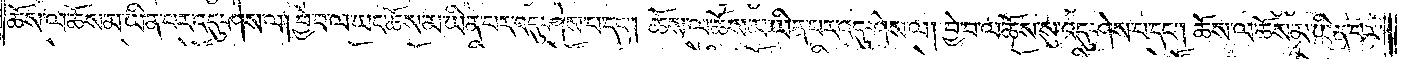ཆོས་ལ་ཆོས་མ་ཡིན་པར་འདུ་ཤེས་ལ། བྱེ་བ་ལ་ཡང་ཆོས་མ་ཡིན་པར་འདུ་ཤེས་པ་དང༌། ཆོས་ལ་ཆོས་མ་ཡིན་པར་འདུ་ཤེས་ལ། བྱེ་བ་ལ་ཆོས་སུ་འདུ་ཤེས་པ་དང༌། ཆོས་ལ་ཆོས་མ་ཡིན་པར་
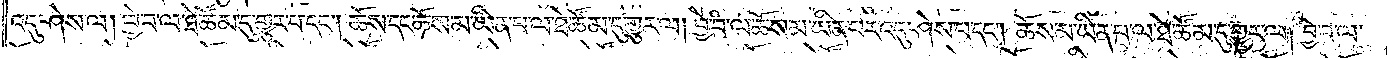འདུ་ཤེས་ལ། བྱེ་བ་ལ་ཐེ་ཚོམ་དུ་གྱུར་པ་དང༌། ཆོས་དང་ཆོས་མ་ཡིན་པ་ལ་ཐེ་ཚོམ་དུ་གྱུར་ལ། བྱེ་བ་ལ་ཆོས་མ་ཡིན་པར་འདུ་ཤེས་པ་དང༌། ཆོས་མ་ཡིན་པ་ལ་ཐེ་ཚོམ་དུ་གྱུར་ལ། བྱེ་བ་ལ་
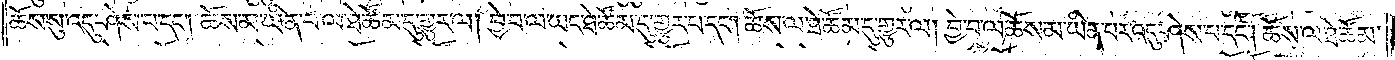ཆོས་སུ་འདུ་ཤེས་པ་དང༌། ཆོས་མ་ཡིན་པ་ལ་ཐེ་ཚོམ་དུ་གྱུར་ལ་བྱེ་བ་ལ་ཡང་ཐེ་ཚོམ་དུ་གྱུར་པ་དང༌། ཆོས་ལ་ཐེ་ཚོམ་དུ་གྱུར་ལ། བྱེ་བ་ལ་ཆོས་མ་ཡིན་པར་འདུ་ཤེས་པ་དང༌། ཆོས་ལ་ཐེ་ཚོམ་
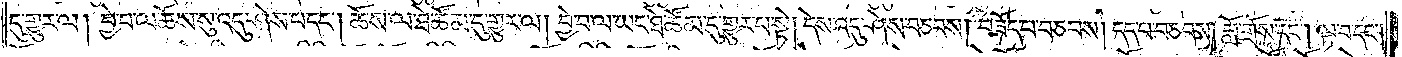དུ་གྱུར་ལ། བྱེ་བ་ལ་ཆོས་སུ་འདུ་ཤེས་པ་དང༌། ཆོས་ལ་ཐེ་ཚོམ་དུ་གྱུར་ལ། བྱེ་བ་ལ་ཡང་ཐེ་ཚོམ་དུ་གྱུར་པ་སྟེ། དེས་འདུ་ཤེས་བཅབས། བཟོད་པ་བཅབས། དད་པ་བཅབས། བློ་གྲོས་དང༌། ལྟ་བ་དང་
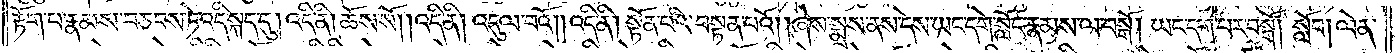རྟོག་པ་རྣམས་བཅབས་ཏེ་འདི་སྐད་དུ། འདི་ནི། ཆོས་སོ། །འདི་ནི། འདུལ་བའོ། །འདི་ནི། སྟོན་པའི་བསྟན་པའོ། །ཞེས་སྨྲས་ནས་དེས་ཡང་དགེ་སློང་རྣམས་ལ་བསྒོ། ཡང་དག་པར་བསྒོ། སློབ། ལེན་
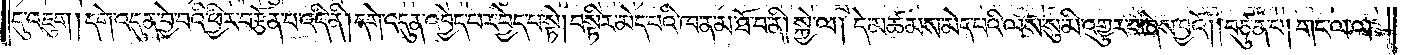དུ་འཇུག །དགེ་འདུན་བྱེ་བའི་ཕྱིར་བརྩོན་པ་འདི་ནི། དགེ་འདུན་འབྱེད་པར་བྱེད་པ་སྟེ། བསྟིར་མེད་པའི་ཁ་ན་མ་ཐོ་བ་ནི། སྐྱེ་ལ། དེ་མཚམས་མེད་པའི་ལས་སུ་མི་འགྱུར་བ་ཞེས་བྱའོ། །བཙུན་པ། གང་ལ་ལ་
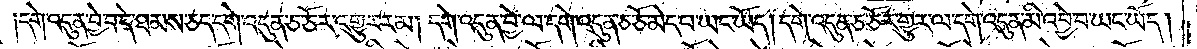དགེ་འདུན་བྱེ་བ་དེ་ཐམས་ཅད་དགེ་འདུན་ཅ་ཅོར་འགྱུར་རམ། དགེ་འདུན་བྱེ་ལ་དགེ་འདུན་ཅ་ཅོ་མེད་པ་ཡང་ཡོད། དགེ་འདུན་ཅ་ཅོར་གྱུར་ལ་དགེ་འདུན་མི་འབྱེ་བ་ཡང་ཡོད།
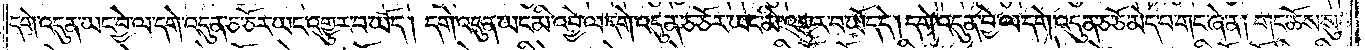དགེ་འདུན་ཡང་བྱེ་ལ་དགེ་འདུན་ཅ་ཅོར་ཡང་འགྱུར་བ་ཡོད། དགེ་འདུན་ཡང་མི་འབྱེ་ལ་དགེ་འདུན་ཅ་ཅོར་ཡང་མི་འགྱུར་བ་ཡོད་དེ། དགེ་འདུན་བྱེ་ལ་དགེ་འདུན་ཅ་ཅོ་མེད་པ་གང་ཞེ་ན། གང་ཆོས་སུ་
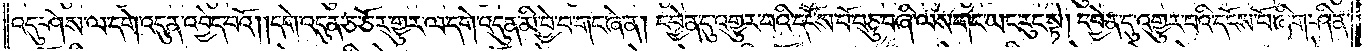འདུ་ཤེས་ལ་དགེ་འདུན་འབྱེད་པའོ། །དགེ་འདུན་ཅ་ཅོར་གྱུར་ལ་དགེ་འདུན་མི་བྱེ་བ་གང་ཞེ་ན། དབྱེན་དུ་འགྱུར་བའི་དངོས་པོ་བཅུ་བཞི་ལས་གང་ཡང་རུང་སྟེ། དབྱེན་དུ་འགྱུར་བའི་དངོས་པོ་ཞིག་ཤིན་
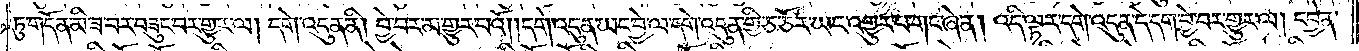ཏུ་གདོན་མི་ཟ་བར་བཟུང་བར་གྱུར་ལ། དགེ་འདུན་ནི། བྱེ་བར་མ་གྱུར་པའོ། །དགེ་འདུན་ཡང་བྱེ་ལ་དགེ་འདུན་གྱི་ཅ་ཅོར་ཡང་འགྱུར་པ་གང་ཞེ་ན། འདི་ལྟར་དགེ་འདུན་དེ་དག་བྱེ་བར་གྱུར་ལ། དབྱེན་
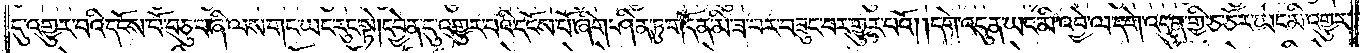དུ་འགྱུར་བའི་དངོས་པོ་བཅུ་བཞི་ལས་གང་ཡང་རུང་སྟེ། དབྱེན་དུ་འགྱུར་བའི་དངོས་པོ་ཞིག་ཤིན་ཏུ་གདོན་མི་ཟ་བར་བཟུང་བར་གྱུར་པའོ། །དགེ་འདུན་ཡང་མི་འབྱེ་ལ་དགེ་འདུན་གྱི་ཅ་ཅོར་ཡང་མི་འགྱུར་
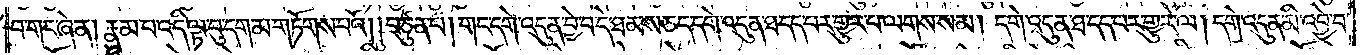བ་གང་ཞེ་ན། རྣམ་པ་འདི་ལྟ་བུ་དག་མ་གཏོགས་པའོ། །བཙུན་པ། གང་དགེ་འདུན་བྱེ་བ་དེ་ཐམས་ཅད་དགེ་འདུན་ཐ་དད་པར་གྱུར་པ་ལགས་སམ། དགེ་འདུན་ཐ་དད་པར་འགྱུར་ལ། དགེ་འདུན་མི་འབྱེ་བ་
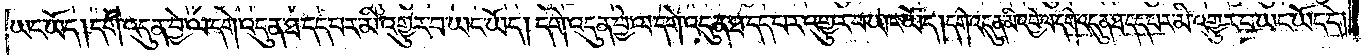ཡང་ཡོད། །དགེ་འདུན་བྱེ་ལ་དགེ་འདུན་ཐ་དད་པར་མི་འགྱུར་བ་ཡང་ཡོད། དགེ་འདུན་བྱེ་ལ་དགེ་འདུན་ཐ་དད་པར་འགྱུར་བ་ཡང་ཡོད། དགེ་འདུན་མི་འབྱེ་ལ་དགེ་འདུན་ཐ་དད་པར་མི་འགྱུར་བ་ཡང་ཡོད་དེ་
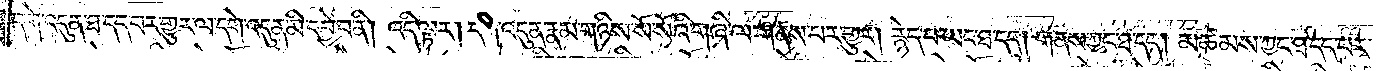དགེ་འདུན་ཐ་དད་པར་གྱུར་ལ་དགེ་འདུན་མི་དབྱེ་བ་ནི། འདི་ལྟར། དགེ་འདུན་རྣམ་གཉིས་སོ་སོའི་གཞི་ལ་གནས་པར་གྱུར། རྙེད་པ་ཡང་ཐ་དད། གནས་ཀྱང་ཐ་དད། མཚམས་ཀྱང་ཐ་དད་པར་
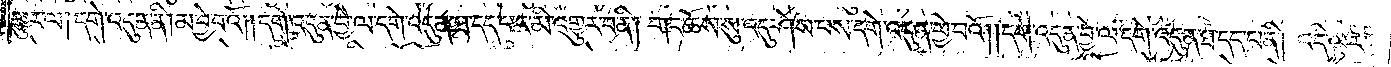གྱུར་ལ། དགེ་འདུན་ནི། མ་བྱེ་བའོ། །དགེ་འདུན་བྱེ་ལ་དགེ་འདུན་ཐ་དད་པར་མི་འགྱུར་བ་ནི། གང་ཆོས་སུ་འདུ་ཤེས་པས་དགེ་འདུན་ཕྱེ་བའོ། །དགེ་འདུན་བྱེ་ལ་དགེ་འདུན་ཐ་དད་པ་ནི། འདི་ལྟར་
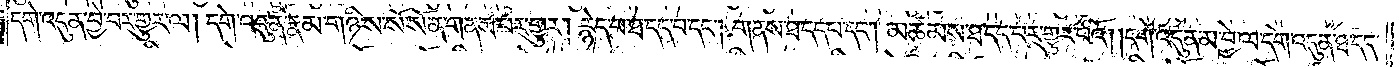དགེ་འདུན་བྱེ་བར་གྱུར་ལ། དགེ་འདུན་རྣམ་གཉིས་སོ་སོ་ན་གནས་པར་གྱུར། རྙེད་པ་ཐ་དད་པ་དང༌། གནས་ཐ་དད་པ་དང༌། མཚམས་ཐ་དད་པར་གྱུར་པའོ། །དགེ་འདུན་མ་བྱེ་ལ་དགེ་འདུན་ཐ་དད་
